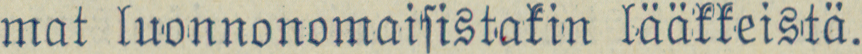mat luonnonomaisistakin lääkkeistä.
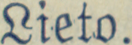Lieto.
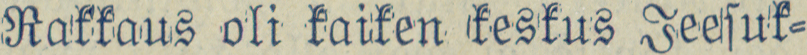Rakkaus oli kaiken keskus Jeesuk-
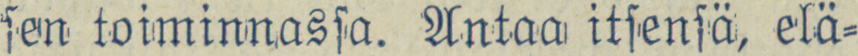sen toiminnassa. Antaa itsensä, elä-
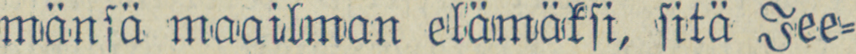mänsä maailman elämäksi, sitä Jee-
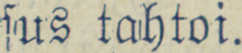sus tahtoi.
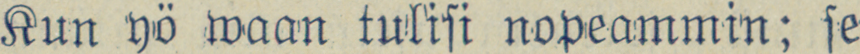Kun yö waan tulisi nopeammin; se
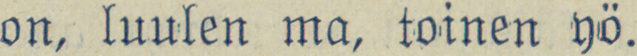on, luulen ma, toinen yö.
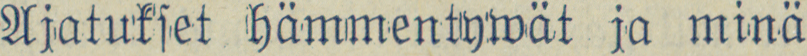Ajatukset hämmentywät ja minä
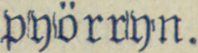pyörryn.
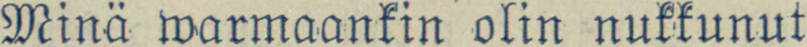Minä warmaankin olin nukkunut
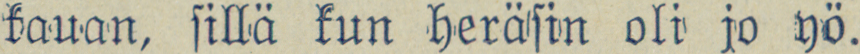kauan, sillä kun heräsin oli jo yö.
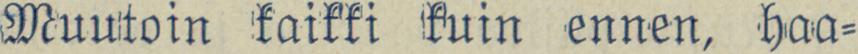Muutoin kaikki kuin ennen, haa-
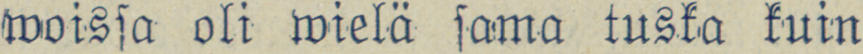woissa oli wielä sama tuska kuin
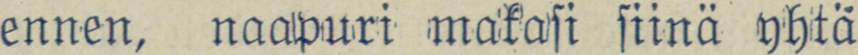ennen, naapuri makasi siinä yhtä
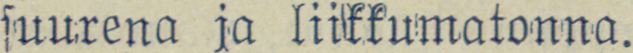suurena ja liikkumatonna.
